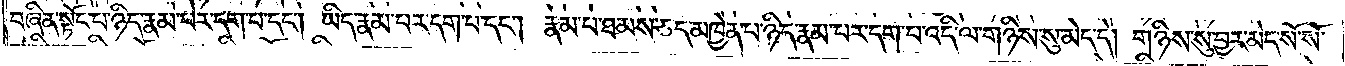བཞིན་སྟོང་པ་ཉིད་རྣམ་པར་དག་པ་དང༌། ཡིད་རྣམ་པར་དག་པ་དང༌། རྣམ་པ་ཐམས་ཅད་མཁྱེན་པ་ཉིད་རྣམ་པར་དག་པ་འདི་ལ་གཉིས་སུ་མེད་དེ། གཉིས་སུ་བྱར་མེད་སོ་སོ་
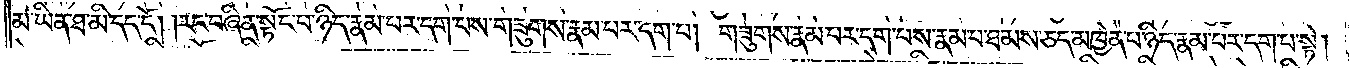མ་ཡིན་ཐ་མི་དད་དོ། །རང་བཞིན་སྟོང་པ་ཉིད་རྣམ་པར་དག་པས་གཟུགས་རྣམ་པར་དག་པ། གཟུགས་རྣམ་པར་དག་པས་རྣམ་པ་ཐམས་ཅད་མཁྱེན་པ་ཉིད་རྣམ་པར་དག་པ་སྟེ།
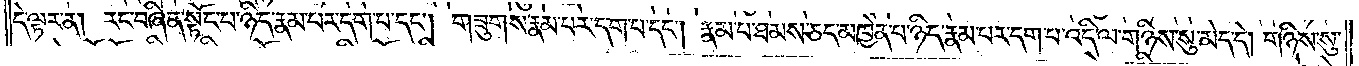དེ་ལྟར་ན། རང་བཞིན་སྟོང་པ་ཉིད་རྣམ་པར་དག་པ་དང༌། གཟུགས་རྣམ་པར་དག་པ་དང༌། རྣམ་པ་ཐམས་ཅད་མཁྱེན་པ་ཉིད་རྣམ་པར་དག་པ་འདི་ལ་གཉིས་སུ་མེད་དེ། གཉིས་སུ་
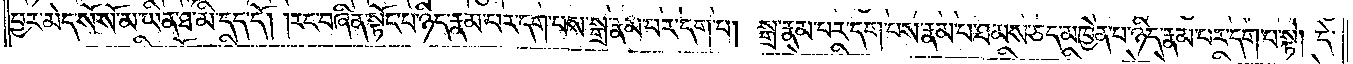བྱར་མེད་སོ་སོ་མ་ཡིན་ཐ་མི་དད་དོ། །རང་བཞིན་སྟོང་པ་ཉིད་རྣམ་པར་དག་པས་སྒྲ་རྣམ་པར་དག་པ། སྒྲ་རྣམ་པར་དག་པས་རྣམ་པ་ཐམས་ཅད་མཁྱེན་པ་ཉིད་རྣམ་པར་དག་པ་སྟེ། དེ་
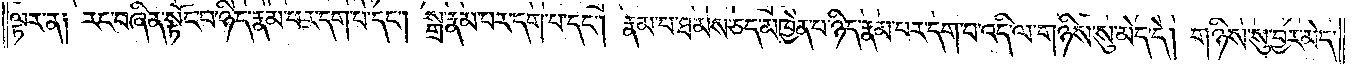ལྟར་ན༑ རང་བཞིན་སྟོང་པ་ཉིད་རྣམ་པར་དག་པ་དང༌། སྒྲ་རྣམ་པར་དག་པ་དང༌། རྣམ་པ་ཐམས་ཅད་མཁྱེན་པ་ཉིད་རྣམ་པར་དག་པ་འདི་ལ་གཉིས་སུ་མེད་དེ། གཉིས་སུ་བྱར་མེད་
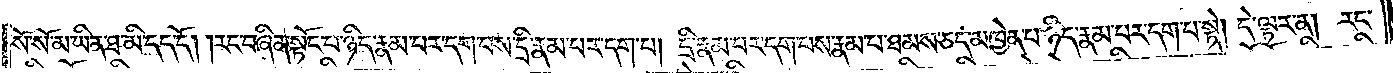སོ་སོ་མ་ཡིན་ཐ་མི་དད་དོ། །རང་བཞིན་སྟོང་པ་ཉིད་རྣམ་པར་དག་པས་དྲི་རྣམ་པར་དག་པ། དྲི་རྣམ་པར་དག་པས་རྣམ་པ་ཐམས་ཅད་མཁྱེན་པ་ཉིད་རྣམ་པར་དག་པ་སྟེ། དེ་ལྟར་ན། རང་
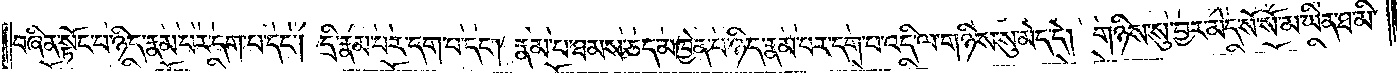བཞིན་སྟོང་པ་ཉིད་རྣམ་པར་དག་པ་དང༌། དྲི་རྣམ་པར་དག་པ་དང༌། རྣམ་པ་ཐམས་ཅད་མཁྱེན་པ་ཉིད་རྣམ་པར་དག་པ་འདི་ལ་གཉིས་སུ་མེད་དེ། གཉིས་སུ་བྱར་མེད་སོ་སོ་མ་ཡིན་ཐ་མི་
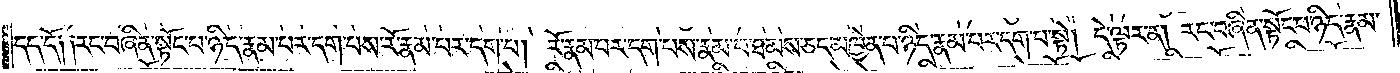དད་དོ༑ ༑རང་བཞིན་སྟོང་པ་ཉིད་རྣམ་པར་དག་པས་རོ་རྣམ་པར་དག་པ། རོ་རྣམ་པར་དག་པས་རྣམ་པ་ཐམས་ཅད་མཁྱེན་པ་ཉིད་རྣམ་པར་དག་པ་སྟེ། དེ་ལྟར་ན། རང་བཞིན་སྟོང་པ་ཉིད་རྣམ་
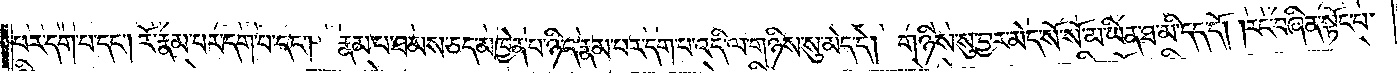པར་དག་པ་དང༌། རོ་རྣམ་པར་དག་པ་དང༌། རྣམ་པ་ཐམས་ཅད་མཁྱེན་པ་ཉིད་རྣམ་པར་དག་པ་འདི་ལ་གཉིས་སུ་མེད་དེ། གཉིས་སུ་བྱར་མེད་སོ་སོ་མ་ཡིན་ཐ་མི་དད་དོ། །རང་བཞིན་སྟོང་པ་
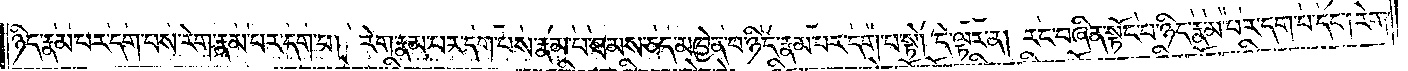ཉིད་རྣམ་པར་དག་པས་རེག་རྣམ་པར་དག་པ། རེག་རྣམ་པར་དག་པས་རྣམ་པ་ཐམས་ཅད་མཁྱེན་པ་ཉིད་རྣམ་པར་དག་པ་སྟེ། དེ་ལྟར་ན། རང་བཞིན་སྟོང་པ་ཉིད་རྣམ་པར་དག་པ་དང༌། རེག་
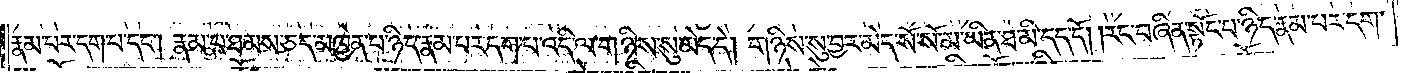རྣམ་པར་དག་པ་དང༌། རྣམ་པ་ཐམས་ཅད་མཁྱེན་པ་ཉིད་རྣམ་པར་དག་པ་འདི་ལ་གཉིས་སུ་མེད་དེ། གཉིས་སུ་བྱར་མེད་སོ་སོ་མ་ཡིན་ཐ་མི་དད་དོ། །རང་བཞིན་སྟོང་པ་ཉིད་རྣམ་པར་དག་
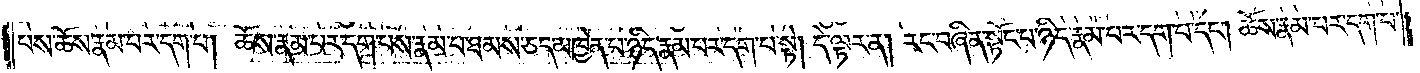པས་ཆོས་རྣམ་པར་དག་པ། ཆོས་རྣམ་པར་དག་པས་རྣམ་པ་ཐམས་ཅད་མཁྱེན་པ་ཉིད་རྣམ་པར་དག་པ་སྟེ། དེ་ལྟར་ན། རང་བཞིན་སྟོང་པ་ཉིད་རྣམ་པར་དག་པ་དང༌། ཆོས་རྣམ་པར་དག་པ་
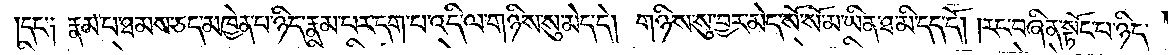དང་༑ རྣམ་པ་ཐམས་ཅད་མཁྱེན་པ་ཉིད་རྣམ་པར་དག་པ་འདི་ལ་གཉིས་སུ་མེད་དེ། གཉིས་སུ་བྱར་མེད་སོ་སོ་མ་ཡིན་ཐ་མི་དད་དོ། །རང་བཞིན་སྟོང་པ་ཉིད་
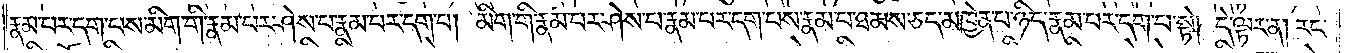རྣམ་པར་དག་པས་མིག་གི་རྣམ་པར་ཤེས་པ་རྣམ་པར་དག་པ། མིག་གི་རྣམ་པར་ཤེས་པ་རྣམ་པར་དག་པས་རྣམ་པ་ཐམས་ཅད་མཁྱེན་པ་ཉིད་རྣམ་པར་དག་པ་སྟེ། དེ་ལྟར་ན། རང་
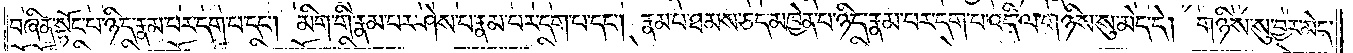བཞིན་སྟོང་པ་ཉིད་རྣམ་པར་དག་པ་དང༌། མིག་གི་རྣམ་པར་ཤེས་པ་རྣམ་པར་དག་པ་དང༌། རྣམ་པ་ཐམས་ཅད་མཁྱེན་པ་ཉིད་རྣམ་པར་དག་པ་འདི་ལ་གཉིས་སུ་མེད་དེ། གཉིས་སུ་བྱར་མེད་
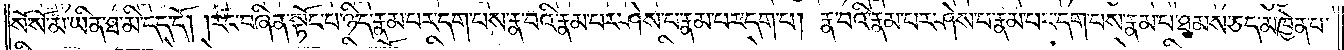སོ་སོ་མ་ཡིན་ཐ་མི་དད་དོ། །རང་བཞིན་སྟོང་པ་ཉིད་རྣམ་པར་དག་པས་རྣ་བའི་རྣམ་པར་ཤེས་པ་རྣམ་པར་དག་པ། རྣ་བའི་རྣམ་པར་ཤེས་པ་རྣམ་པར་དག་པས་རྣམ་པ་ཐམས་ཅད་མཁྱེན་པ་
